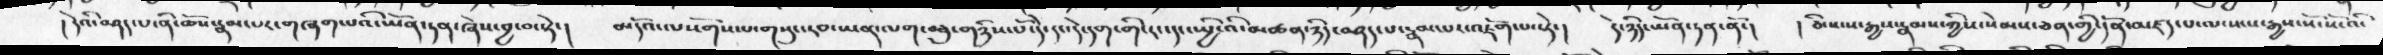། དེའི་བཤད་པ་ནི་ཆོས་རྣམ་པར་་གཞག་པའི་ཡོན་ཏན་ཞེས་བྱ་བ་སྟེ་།  མདོའ་ལསོགས་་པ་གསུང་རབ་ཡན་ལག་བཅུ་གཉིས་པོ་དེ་དང་དེ་དག་གི་རང་དང་སྤྱི་འི་མཚན་ཉིད་བཤད་པ་རྣམ་པར་འཇོག་པ་སྟེ་།   དེ་ཉིད་ཡོན་ཏན་ནོ་།   །ཅི་སངས་རྒྱས་རྣམས་ཀྱིས་སེམས་ཅན་གྱི་དོན་མཛད་པ་ལ་སངས་རྒྱས་སོ་སོ་འི་
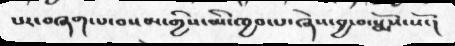པར་བཞག་པ་བསམ་གྱིས་མི་ཁྱབ་པ་ཞེས་བྱ་བ་སྨོས་སོ་།
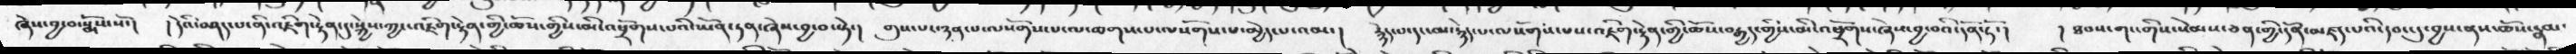ཞེས་བྱ་བ་སྨོས་སོ་།  །དེའི་བཤད་པ་ནི་འཇིག་རྟེན་དུ་སྐྱེས་ཀྱང་འཇིག་རྟེན་གྱི་ཆོས་གྱིས་མི་འཕྲོགས་པའི་ཡོན་ཏན་ཞེས་བྱ་བ་སྟེ་།   གུས་པར་ཉན་པ་ལསོགས་པ་ལ་ཆགས་པ་ལསོགས་པ་མྱེད་པ་འམ་།  རྙེད་པ་དང་མ་རྙེད་པ་ལ་ལསོགས་པས་འཇིག་རྟེན་གྱི་ཆོས་བརྒྱད་གྱིས་མི་འཕྲོགས་ཞེས་བྱ་བའི་དོན་ཏོ་།  །ཐབས་གང་གིས་སེམས་ཅན་གྱི་དོན་མཛད་པའི་དབང་དུ་བྱས་ནས་ཆོས་རྣམ
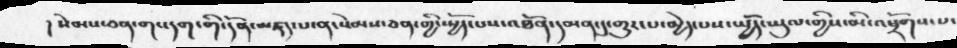།སེམས་ཅན་གང་དག་གི་དོན་མཛད་པ་ན་སེམས་ཅན་གྱི་སྤྱོད་པས་འཐོན་དམན་དུ་གྱུར་པ་མྱེད་པས་སྤྱོད་ཡུལ་གྱིས་མི་འཕྲོགས་པ་
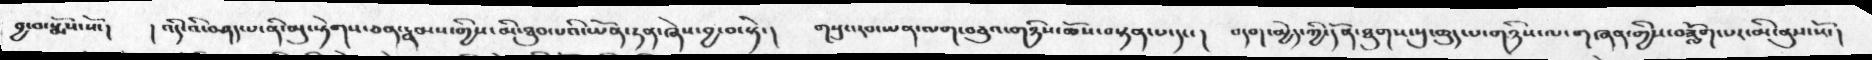བྱ་བ་སྨོས་སོ་།   །འདི་འི་བཤད་པ་ནི་མུ་སྟེགས་ཅན་རྣམས་གྱིས་མི་ཐུབ་པའི་ཡོན་ཏན་ཞེས་བྱ་བ་སྟེ་།   གསུང་རབ་ཡན་ལག་བཅུའ་གཉིས་ཆོས་བསྟན་པདང་།   བདག་མྱེད་ཀྱི་དོན་ཐུགས་སུ་ཆུད་པ་གཉིས་ལ་གཞན་གྱིས་བཟློག་པར་མི་ནུས་སོ།
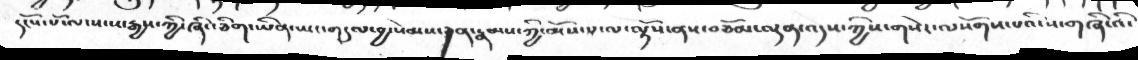དངོས་པོ་ལ་སངས་རྒྱས་ཀྱི་ཞིང་ཅིག་ཡིན་ཡང་གདུལ་བྱ་སེམས་ཅན་རྣམས་ཀྱི་མོས་པ་ལ་ལྟོས་ནས་བཅོམ་ལྡན་འདས་ཀྱིས་གསེར་ལསོགས་པའི་ས་གཞི་འི་
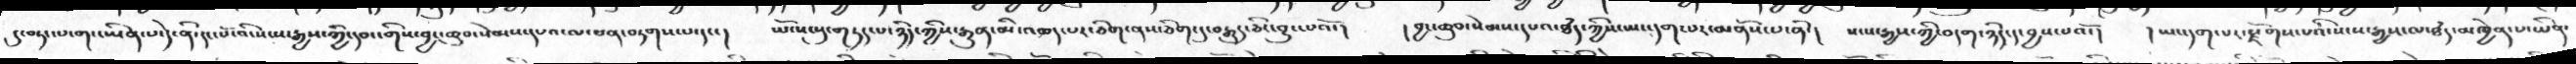དུ་བཏང་པ་གང་ཡིན་པ་དེ་ནི་དང་པོ་འི་སངས་རྒྱས་ཀྱི་དབང་གིས་བྱང་ཆུབ་སེམས་དཔའ་ལ་ཕན་བཏགས་པ་དང་།   ཡོངས་སུ་གཏད་པ་ཉིད་ཀྱིས་རྒྱུན་མི་འཆད་པར་ཅིག་ནས་ཅིག་དུ་བརྒྱུད་ཅིང་བྱུང་པའོ་།   །བྱང་ཆུབ་སེམས་དཔའ་ཐདཾ་ཀྱིས་ཡང་དག་པར་མནོས་པ་ནི་།  སངས་རྒྱས་ཀྱི་བདག་ཉིད་དུ་བྱས་པའོ་།  ། ཡང་དག་པར་རྫོགས་པའི་སངས་རྒྱས་ལ་ཐདཾ་མཁྱེན་པ་ཡིན་
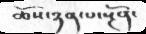ཆོས་ཉན་པ་སྔོན་
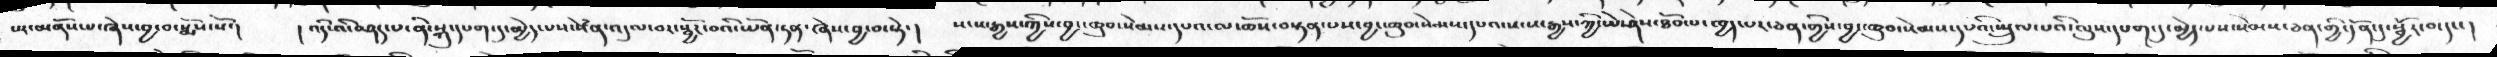པར་མནོས་པ་ཞེས་བྱ་བ་སྨོས་སོ་།  ། འདི་འི་བཤད་པ་ནི་སྐུ་དཔག་དུ་མྱེད་པས་སེཾན་འདུལ་བར་སྦྱོར་བའི་ཡོན་ཏན་ཞེས་བྱ་བ་སྟེ་།  སངས་རྒྱས་ཀྱིས་བྱང་ཆུབ་སེམས་དཔའ་ལ་ཆོས་བསྟན་པས་བྱང་ཆུབ་སེམས་དཔའ་སངས་རྒྱས་ཀྱི་ཡེ་ཤེས་ཐོབ་པ་ཁྱད་པར་ཅན་གྱིས་བྱང་ཆུབ་སེམས་དཔའི་སྤྲུལ་པའི་ལུས་དཔག་དུ་མྱེད་པས་སེམས་ཅན་གྱི་དོན་དུ་སྦྱོར་བ་དང་།
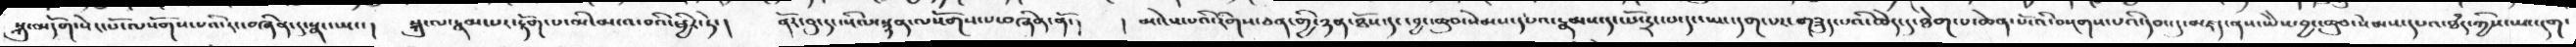སྐུ་མདོག་སེར་པོ་ལསོགས་པའི་རང་བཞིན་དུ་སྣང་ཡང་།  སྐུ་ལ་རྣམ་པར་རྟོག་པ་མི་མངའ་བའི་ཕྱིར་ཏེ་།  ནོར་བུ་དང་སིལ་སྙན་ལསོགས་པ་བཞིན་ནོ་།  ། མ་ངེས་པའི་རིགས་ཅན་གྱི་ཉན་ཐོས་དང་བྱང་ཆུབ་སེམས་དཔའ་རྣམས་དང་པོ་དྲང་པ་དང་ཡང་དག་པར་གཟུད་པའི་ཆེད་དུ་ཐེག་པ་ཆེན་པོ་འི་བསྔགས་པའི་དབང་དུ་མཛད་ནས་ཡེེས་བྱང་ཆུབ་སེམས་དཔའ་ཐཾད་ཀྱིས་ཡང་དག་
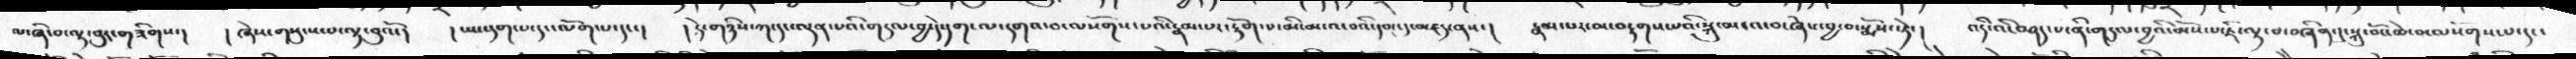ལ་ཞི་བ་ལྟ་བུར་གཟིགས་།  ། ཞེས་གསུངས་པ་ལྟ་བུའོ།   ། ཡང་དག་པ་དང་ལོག་པ་དང་།  ། དེ་གཉིས་ཀ་དང་ལྡན་པའི་གདུལ་བྱ་དེ་དག་ལ་དགའ་བ་ལསོགས་པའི་རྣམ་པར་རྟོག་པ་མི་མངའ་བའི་དབང་དུ་མཛད་ནས་།  རྣམ་པར་མ་བརྟགས་པའི་སྐུ་མངའ་བ་ཞེས་བྱ་བ་སྨོས་ཏེ་།  འདི་འི་བཤད་པ་ནི་གདུལ་བྱའི་མོས་པ་ཇི་ལྟ་བ་བཞིན་དུ་སྐུ་བོང་ཆེ་བ་ལསོགས་པ་དང་
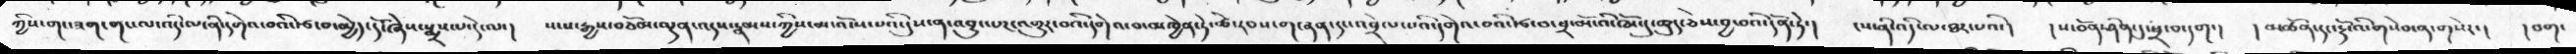ཀྱིས་གང་ཟག་གང་ལ་འདི་ལ་ནི་དགེའ་བའི་རྩ་བ་མྱེད་དོ་ཞེས་སྨྲས་པ་དེ་ལ་།  སངས་རྒྱས་བཅོམ་ལྡན་འདས་རྣམས་ཀྱིས་མ་འོངས་པའི་དུས་ན་འབྱུང་པར་འགྱུར་བའི་དགེའ་བ་མཁྱེན་ཏེ་ཚེ་རབས་གཞན་དང་འབྲེལ་པའི་དགེའ་བའི་རྩ་བ་ཕྲ་མོ་འི་ཁོངསུ་ཆུད་ཅེས་བྱ་བའི་དོན་ཏེ་།  ངས་ནི་འདི་ལ་ཐར་་པའི་།   ། ས་བོན་ཤིན་ཏུ་ཕྲ་བ་དག་།  །མཚོན་དང་རྡོ་འི་གསེབ་ན་གསེར་།  ། བག་
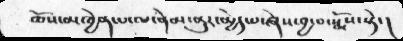ཆོས་མཁྱེན་པ་ལ་ནེམ་ནུར་མྱེད་པ་ཞེས་བྱ་བ་སྨོས་སྟེ་།
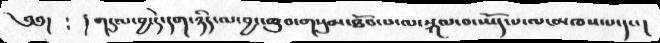༄༅། ༴ ། གདུལ་བྱ་དེ་དག་ཉིད་ལ་བྱང་ཆུབ་གསུམ་ཐོབ་པ་ལ་སྐལ་བ་ཡོད་པ་ལ་མཁས་པ་དང་།
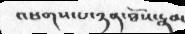འཕགས་པ་ཉན་ཐོས་རྣམ
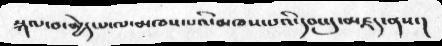སྐལ་་བ་མྱེད་པ་ལ་མཁས་པའི་མཁས་པའི་དབང་དུ་མཛད་ནས་།
